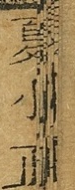夏小正
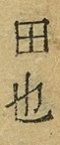田也
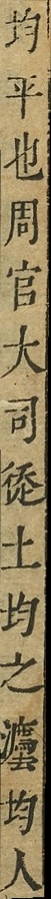均平也周官大司徒土均之灋均人
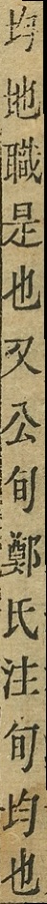均地職是也又公旬鄭氏注旬均也
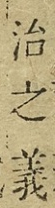治之義
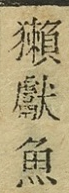獺獻魚
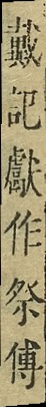戴記獻作祭傅
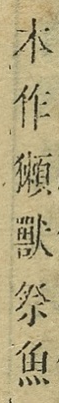本作獺獸祭魚
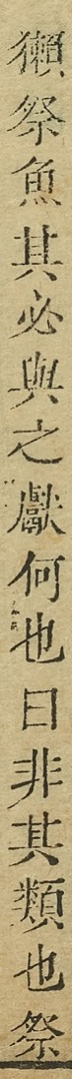獺祭魚其必與之獻何也曰非其類也祭
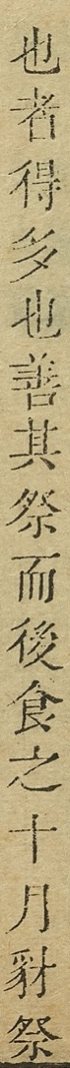也者得多也善其祭而後食之十月豺祭
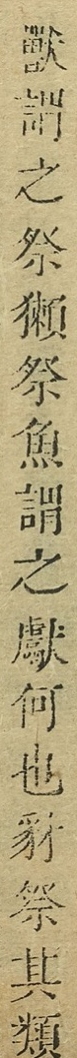獸謂之祭獺祭魚謂之獻何也豺祭其類
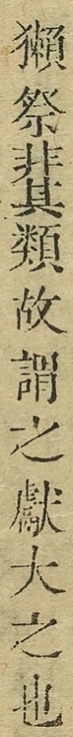獺祭非其類故謂之獻大之也
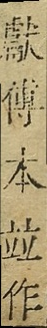獻傳本竝作
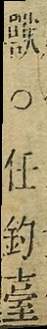獸○任釣臺
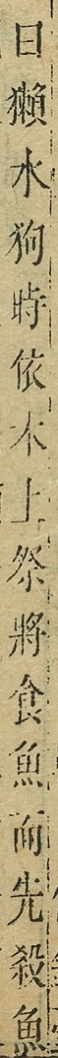曰獺水狗時依木上祭將食魚而先殺魚
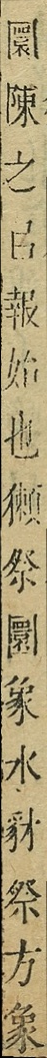闤陳之㠯報始也獺祭圜象水豺祭方象
